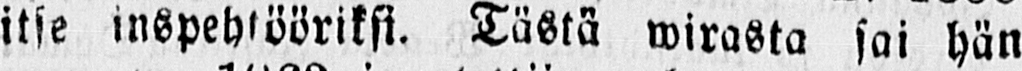itse inspehtööriksi. Tästä wirasta sai hän
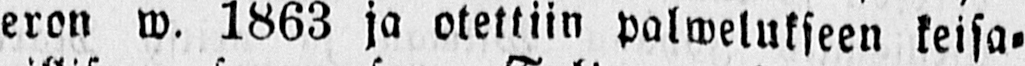eron w. 1863 ja otettiin palwelukseen keisa-
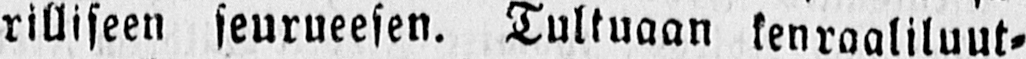rilliseen seurueesen. Tultuaan kenraaliluut-
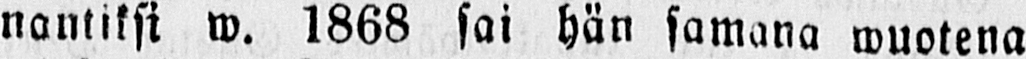nantiksi w. 1868 sai hän samana wuotena
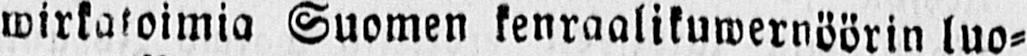wirkatoimia Suomen kenraalikuwernöörin luo-
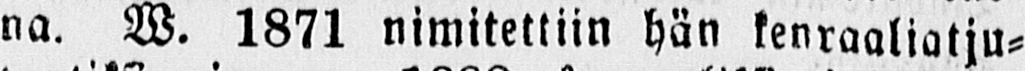na. W. 1871 nimitettiin hän kenraaliatju-
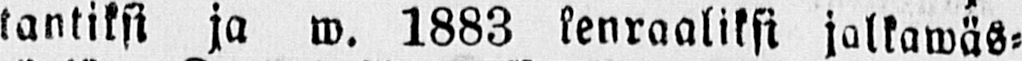tantiksi ja w. 1883 kenraaliksi jalkawäs-
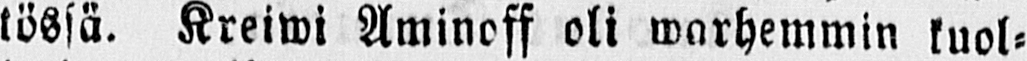tössä. Kreiwi Aminoff oli warhemmin kuol-
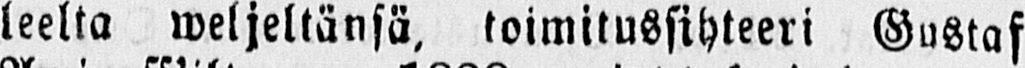leelta weljeltänsä, toimitussihteeri Gustaf
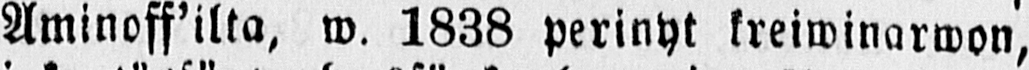Aminoff'ilta, w. 1838 perinyt kreiwinarwon,
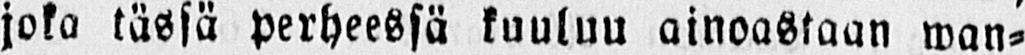joka tässä perheessä kuuluu ainoastaan wan-
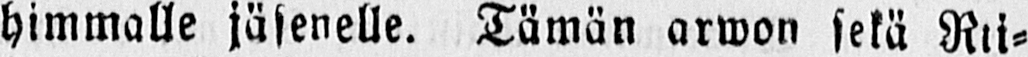himmalle jäsenelle. Tämän arwon sekä Rii-
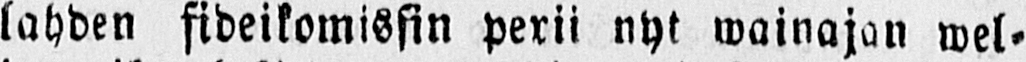lahden fideikomissin perii nyt wainajan wel-
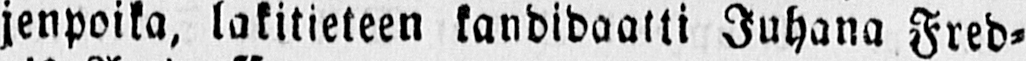jenpoika, lakitieteen kandidaatti Juhana Fred-
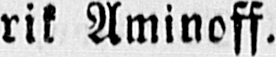rik Aminoff.
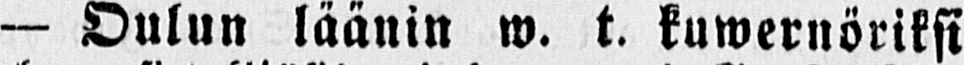— Oulun läänin w. t. kuwernöriksi
